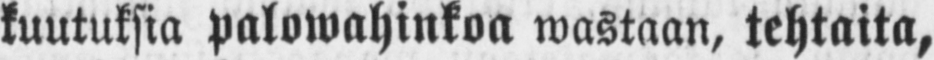kuutuksia palowahinkoa wastaan, tehtaita,
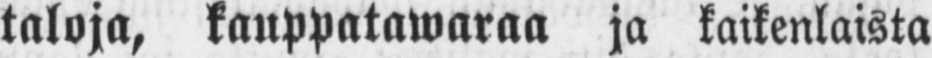taloja, kauppatawaraa ja kaikenlaista
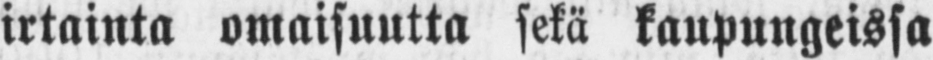irtainta omaisuutta sekä kaupungeissa
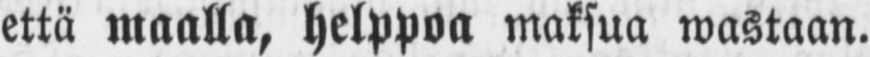että maalla, helppoa maksua wastaan.
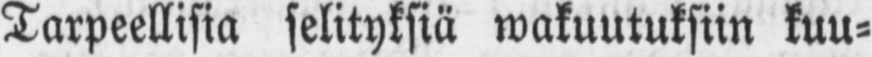Tarpeellisia selityksiä wakuutuksiin kuu-
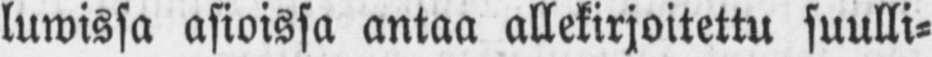luwissa asioissa antaa allekirjoitettu suulli-
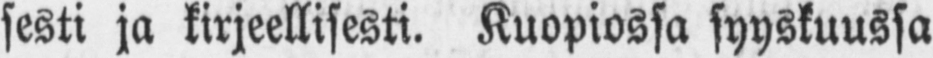sesti ja kirjeellisesti. Kuopiossa syyskuussa
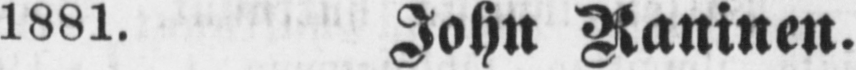1881. John Raninen.
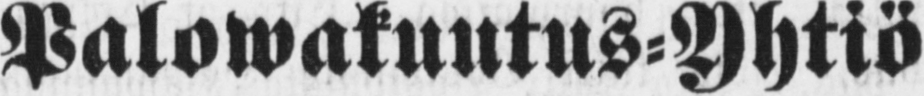Palowakuutus-Yhtiö
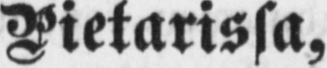Pietarissa,
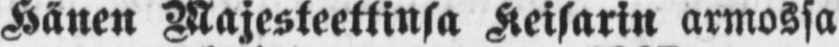Hänen Majesteettinsa Keisarin armossa
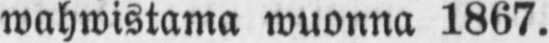wahwistama wuonna 1867.
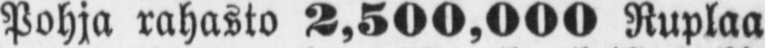Pohja rahasto 2,500,000 Ruplaa
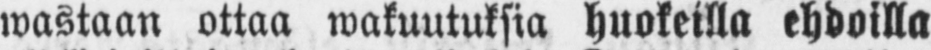wastaan ottaa wakuutuksia huokeilla ehdoilla
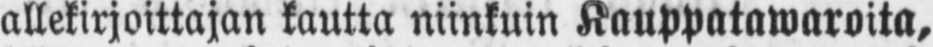allekirjoittajan kautta niinkuin Kauppatawaroita,
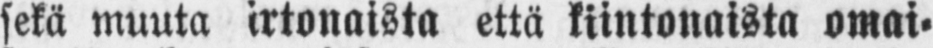sekä muuta irtonaista että kiintonaista omai-
